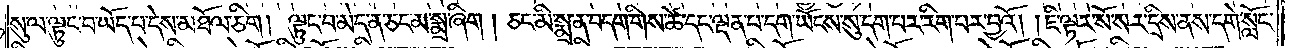སུ་ལ་ལྟུང་བ་ཡོད་པ་དེས་མཐོལ་ཅིག། ལྟུང་བ་མེད་ན་ཅང་མ་སྨྲ་ཞིག། ཅང་མི་སྨྲ་ན་བདག་གིས་ཚེ་དང་ལྡན་པ་དག་ཡོངས་སུ་དག་པར་རིག་པར་བྱའོ། །ཇི་ལྟར་སོ་སོར་དྲིས་ནས་དགེ་སློང་
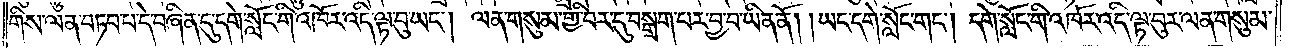གིས་ལན་བཏབ་པ་དེ་བཞིན་དུ་དགེ་སློང་གི་འཁོར་འདི་ལྟ་བུ་ཡང༌། ལན་གསུམ་གྱི་བར་དུ་བསྒྲག་པར་བྱ་བ་ཡིན་ནོ། །ཡང་དགེ་སློང་གང༌། དགེ་སློང་གི་འཁོར་འདི་ལྟ་བུར་ལན་གསུམ་
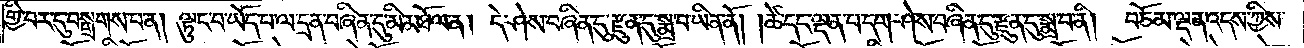གྱི་བར་དུ་བསྒྲགས་པ་ན། ལྟུང་བ་ཡོད་པ་ལ་དྲན་བཞིན་དུ་མི་མཐོལ་ན། དེ་ཤེས་བཞིན་དུ་རྫུན་དུ་སྨྲ་བ་ཡིན་ནོ། །ཚེ་དང་ལྡན་པ་དག་ཤེས་བཞིན་དུ་རྫུན་དུ་སྨྲ་བ་ནི། བཅོམ་ལྡན་འདས་ཀྱིས་
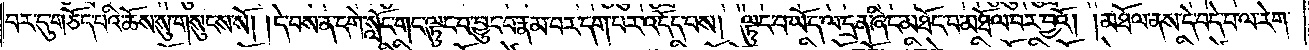བར་དུ་གཅོད་པའི་ཆོས་སུ་གསུངས་སོ། །དེ་བས་ན་དགེ་སློང་གང་ལྟུང་བ་བྱུང་བ་རྣམ་པར་དག་པར་འདོད་པས། ལྟུང་བ་ཡོད་ལ་དྲན་ཞིང་མཐོང་བ་མཐོལ་བར་བྱའོ། །མཐོལ་ནས་དེ་བདེ་བ་ལ་རེག་
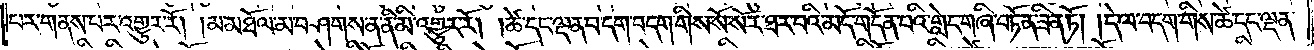པར་གནས་པར་འགྱུར་རོ། །མ་མཐོལ་མ་བཤགས་ན་ནི་མི་འགྱུར་རོ། །ཚེ་དང་ལྡན་པ་དག་བདག་གིས་སོ་སོར་ཐར་པའི་མདོ་གདོན་པའི་གླེང་གཞི་བཏོན་ཟིན་ཏོ། །དེ་ལ་བདག་གིས་ཚེ་དང་ལྡན་
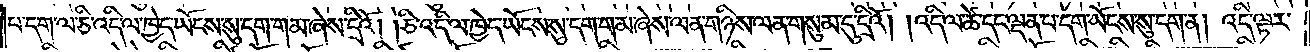པ་དག་ལ་ཅི་འདི་ལ་ཁྱེད་ཡོངས་སུ་དག་གམ་ཞེས་དྲིའོ། །ཅི་འདི་ལ་ཁྱེད་ཡོངས་སུ་དག་གམ་ཞེས་ལན་གཉིས་ལན་གསུམ་དུ་དྲིའོ། །འདི་ལ་ཚེ་དང་ལྡན་པ་དག་ཡོངས་སུ་དག་ན། འདི་ལྟར་
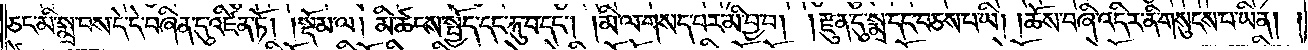ཅང་མི་སྨྲ་བས་དེ་དེ་བཞིན་དུ་འཛིན་ཏོ།    །སྡོམ་ལ། མི་ཚངས་སྤྱོད་དང་རྐུ་བ་དང༌། །མི་ལ་གསད་པར་མི་བྱ་བ། །རྫུན་དུ་སྨྲ་དང་བཅས་པ་ཡི། །ཆོས་བཞི་འདིར་ནི་གསུངས་པ་ཡིན། །
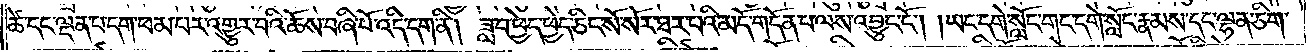ཚེ་དང་ལྡན་པ་དག་ཕམ་པར་འགྱུར་བའི་ཆོས་བཞི་པོ་འདི་དག་ནི། ཟླ་བ་ཕྱེད་ཕྱེད་ཅིང་སོ་སོར་ཐར་པའི་མདོ་གདོན་པ་ལས་འབྱུང་ངོ༌། །ཡང་དགེ་སློང་གང་དགེ་སློང་རྣམས་དང་ལྷན་ཅིག་
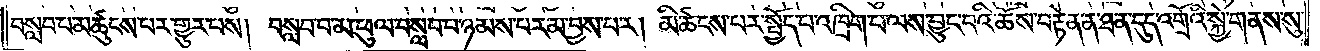བསླབ་པ་མཚུངས་པར་གྱུར་པས། བསླབ་པ་མ་ཕུལ་བསླབ་པ་ཉམས་པར་མ་བྱས་པར། མི་ཚངས་པར་སྤྱོད་པ་འཁྲིག་པ་ལས་བྱུང་བའི་ཆོས་བརྟེན་ན་ཐ་ན་དུད་འགྲོའི་སྐྱེ་གནས་སུ་
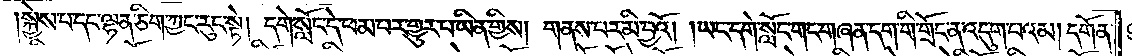སྐྱེས་པ་དང་ལྷན་ཅིག་ཀྱང་རུང་སྟེ། དགེ་སློང་དེ་ཕམ་པར་གྱུར་པ་ཡིན་གྱིས། གནས་པར་མི་བྱའོ། །ཡང་དགེ་སློང་གང་གཞན་དག་གི་གྲོང་ན་འདུག་པའམ། དགོན་
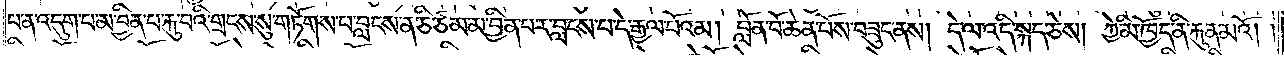པ་ན་འདུག་པ་མ་བྱིན་པ་རྐུ་བའི་གྲངས་སུ་གཏོགས་པ་བླངས་ན་ཅི་ཙམ་མ་བྱིན་པར་བླངས་པ་དེ་རྒྱལ་པོའམ། བློན་པོ་ཆེན་པོས་བཟུང་ནས། དེ་ལ་འདི་སྐད་ཅེས། ཀྱེ་མི་ཁྱོད་ནི་རྐུན་མའོ། །
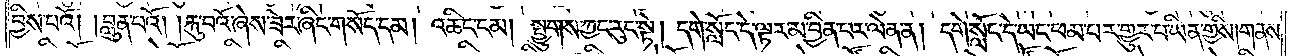བྱིས་པའོ། །བླུན་པའོ། །རྐུ་བའོ་ཞེས་ཟེར་ཞིང་གསོད་དམ། འཆིང་ངམ། སྤྱུགས་ཀྱང་རུང་སྟེ། དགེ་སློང་དེ་ལྟར་མ་བྱིན་པར་ལེན་ན། དགེ་སློང་དེ་ཡང་ཕམ་པར་གྱུར་པ་ཡིན་གྱིས། གནས་
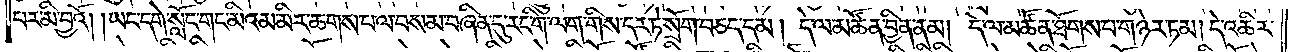པར་མི་བྱའོ། །ཡང་དགེ་སློང་གང་མིའམ་མིར་ཆགས་པ་ལ་བསམ་བཞིན་དུ་རང་གི་ལག་གིས་དར་ཏེ་སྲོག་བཅད་དམ། དེ་ལ་མཚོན་བྱིན་ནམ། དེ་ལ་མཚོན་ཐོགས་པ་གཉེར་ཏམ། དེ་འཆིར་
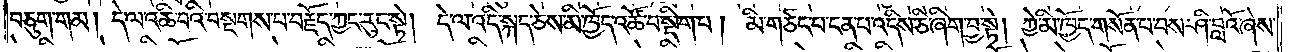བཅུག་གམ། དེ་ལ་འཆི་བའི་བསྔགས་པ་བརྗོད་ཀྱང་རུང་སྟེ། དེ་ལ་འདི་སྐད་ཅེས་མི་ཁྱོད་འཚོ་བ་སྡིག་པ། མི་གཙང་བ་ངན་པ་འདིས་ཅི་ཞིག་བྱ་སྟེ། ཀྱེ་མི་ཁྱོད་གསོན་པ་བས་ཤི་བླའོ་ཞེས་
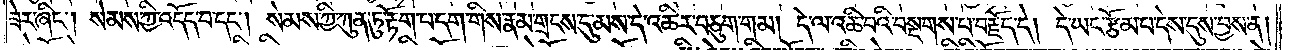ཟེར་ཞིང༌། སེམས་ཀྱི་འདོད་པ་དང༌། སེམས་ཀྱི་ཀུན་ཏུ་རྟོག་པ་དག་གིས་རྣམ་གྲངས་དུ་མས་དེ་འཆིར་བཅུག་གམ། དེ་ལ་འཆི་བའི་བསྔགས་པ་བརྗོད་དེ། དེ་ཡང་རྩོམ་པ་དེས་དུས་བྱས་ན།
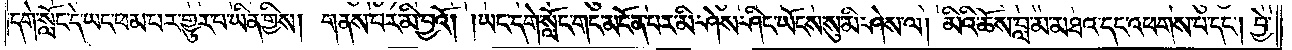དགེ་སློང་དེ་ཡང་ཕམ་པར་གྱུར་པ་ཡིན་གྱིས། གནས་པར་མི་བྱའོ། །ཡང་དགེ་སློང་གང་མངོན་པར་མི་ཤེས་ཤིང་ཡོངས་སུ་མི་ཤེས་ལ། མིའི་ཆོས་བླ་མ་མཐའ་དང་འཕགས་པ་དང༌། བྱེ་
